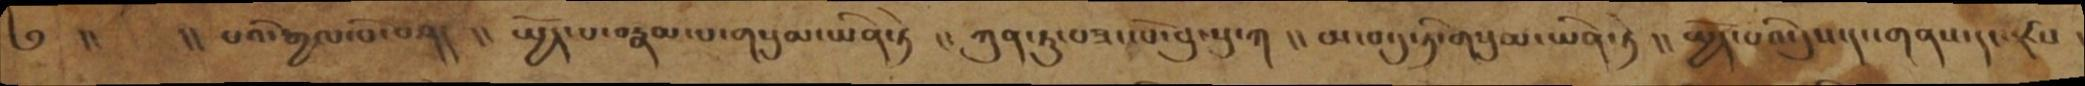༄   །།    །།པའི་རྒྱལ་པོ་བཤད  །།  སྤྱོད་པ་བརྣམ་པ་གསུམ་ཡིན་ཏེ །།  ཀུན་ཏུ་བཟང་པོ་བུ་སུ་ཀ །། ཡ་བ་དུ་ཏི་གསུམ་ཡིན་ཏེ  །།  སྤྱོད་པའི་དུས་དང་གནས་དང་རྫས ་
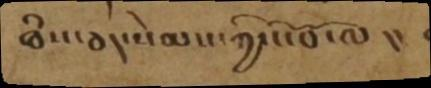ཐཾས་ཅད་སེམས་ཀྱི་ངོ་བོ་ལ  །།
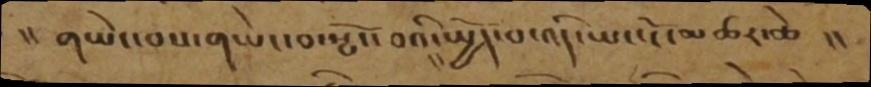།།    གཡེང་བས་གཡེང་བ་རྩོད་བའི་སྤྱོད་པ་འདི་ཡང་ངོ་མཚར་ཆེ  །།
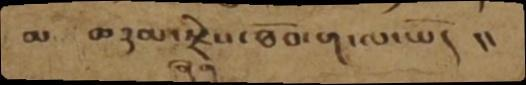མ མཉམ་ཞག་རྗེས་ཐོབ་ག་ལ་ཡོད །།
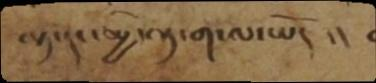ལྟ་དང་མྱི་ལྟ་ག་ལ་ཡོད  །།
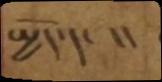སྤྱོད་དང    །།
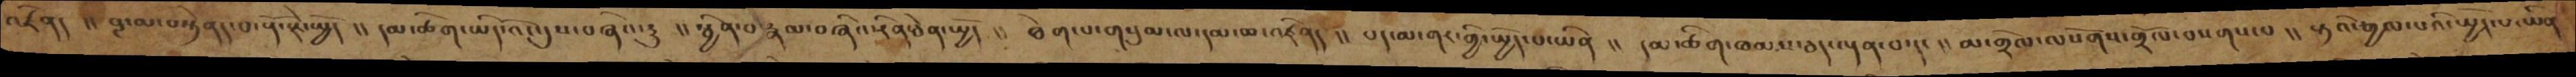འཛིནད །། བླ་མ་བསྟེནད་པ་རྡོ་རྗེ་སྤྱོད །། དམ་ཚིག་ཡིད་འོང་དུས་བཞིའ་རུ  །།  སྦྱིན་པ་རྣམ་བཞིའ་རིན་ཅེན་སྤྱོད  །།ཐེག་པ་གསུམ་ལདམ་ཆ་འཛིནད །། པད་མ་གར་གྱི་སྤྱོད་པ་ཡིན །། དམ་ཚིག་ཐམས་ཅད་ལྡན་པ་དང །། མ་གྲོལ་ལསོགས་གྲོལ་བསགས་པ །། སྟའི་རྒྱལ་པའི་སྤྱོད་པ་ཡིན
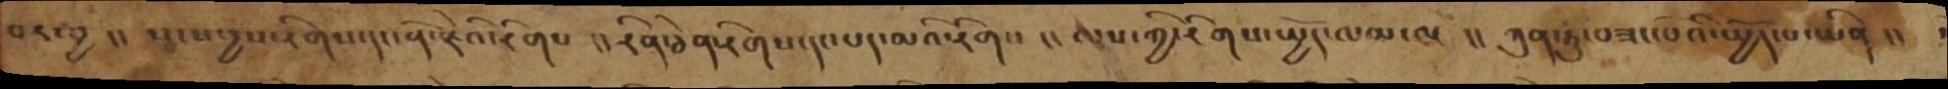པར་བྱ །། སངས་དྱས་རིགས་དང་རྡོ་རྗེའི་རིགས །། རིནཆེན་རིགས་དང་པད་མའི་རིགས །། ལས་ཀྱི་རིགས་སྤྱོད་ལམ་ལ  །། ཀུན་ཏུ་བཟང་པོའི་སྤྱོད་པ་ཡིན །།
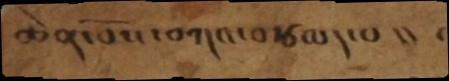ཆེན་པོས་བཀའ་བརྩལད་པ །།
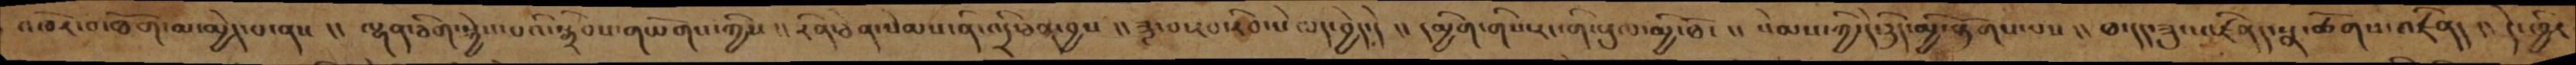འཁོར་བ་ཐོག་མ་མྱེད་པ་ནས །། ལྷན་ཅིག་སྐྱེས་པའི་སྒྲིབས་གཡོགས་ཀྱིས །། རིན་ཅེན་སེམས་ནི་འདི་ཕན་བྱས །། ཟླ་བ་རབ་རིབ་སེལད་བྱེད་དེ །། དམྱིག་གིས་རང་གི་རྡུལ་མྱི་ཐོང །། སེམས་ཀྱི་དེ་ཉིད་མྱི་རྟོགས་པས །། ཐ་དད་ཟུང་འཛིན་སྣ་ཚོགས་འཛིནད །། དེ་ཕྱིར
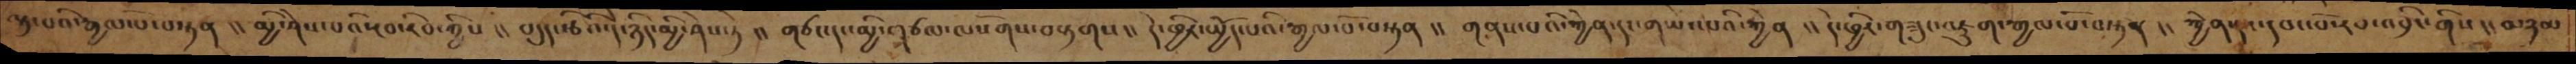ལྟ་པའི་རྒྱལ་པོ་བསྟན།། མྱི་ཤེས་པའི་རབ་རིབ་ཀྱིས།། བདུད་རྩིའི་དེ་ཉིད་མྱི་ཤེས་ཏེ།། གཙང་དང་མྱི་གཙལ་ལསོགས་བརྟགས།། དེ་ཕྱིར་སྤྱོད་པའི་རྒྱལ་པོ་བསྟན།། གནས་པའི་རྐྱེན་དང་གཡེང་པའི་རྐྱེན།། དེ་ཕྱིར་གཟུང་འཇུག་རྒྱལ་པོ་བསྟན།།རྐྱེན་དང་དབང་པོ་རབ་འབྲིང་གིས།། མཉམ
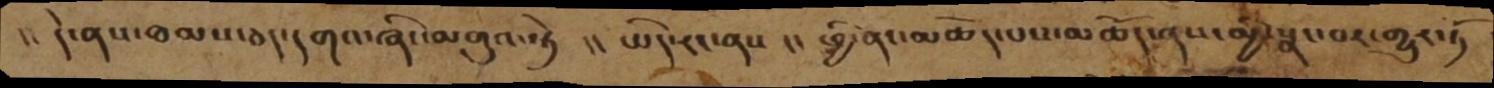།།  དེ་ནས་ཐམས་ཅད་དགའ་ཞིང་མགུའ་ཏེ  །།  ཡིད་རང་ནས  །། ཕྱི་ནང་མཆོད་པས་མཆོད་ནས་མྱི་སྣང་བར་གྱུར་ཏོ
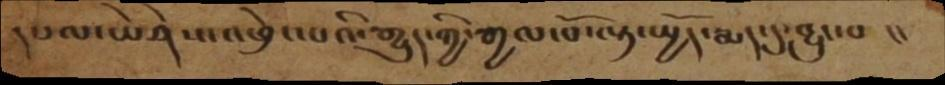དཔལ་ཡེ་ཤེས་འཕྲེང་པའི་རྒྱུད་ཀྱི་རྒྱལ་པོ་ལྟ་སྤྱོད་རྨད་དུ་བྱུང་པ  །།
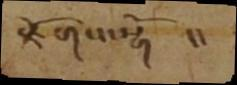རྫོགས་སྷོ།།
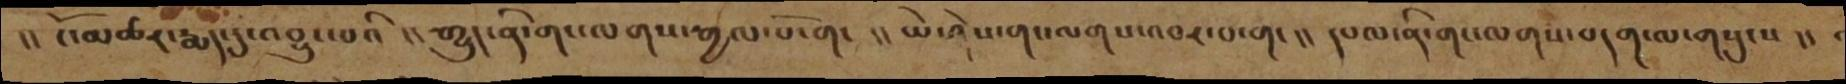།།  ངོ་མཚར་རྨད་དུ་འབྱུང་བའི  །། རྒྱུད་ནི་གང་ལགས་རྒྱལ་པོ་གང  །། ཡེ་ཤེས་གང་ལགས་འབར་བ་གང །། དཔལ་ནི་གང་ལགས་བདག་ལ་གསུངས །།
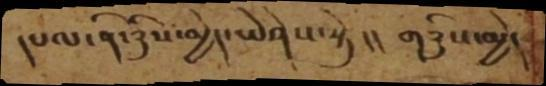དཔལ་ནི་ཉིས་མྱེད་ཡེཤེས་སྟེ །། གཉིས་མྱེད་
